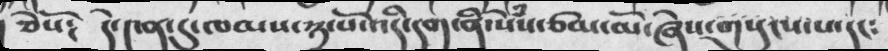ཅེསོ༴   དེ་༤ན་དུ་ཁམས་༢་པོ་འདི་དག་ནི་སེྃས་ཙམ་མོ་ཞེས་གསུངས་པ་དང༴
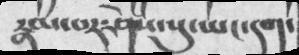རྣམ་པར་ཤེས་སུ་ཡང་དག་
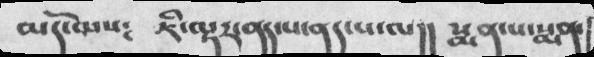མོད་ལས༴ ཇི་ལྟར་ནད་པ་ལ།། སྨན་པ་སྨན་
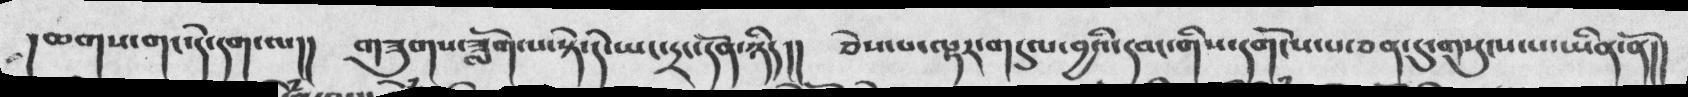།ཆགས་གང་དེ་དག་ལ།། གཟུགས་ཟློག་པ་སྟེ་དེ་ཡང་དྲང་དོན་ཉིད།། ཅེས་པ་ལྟར་གདུལ་བྱའི་དབང་གིས་དགོངས་པ་ཅན་དུ་གསུངས་པ་ཡིན་ནོ།།
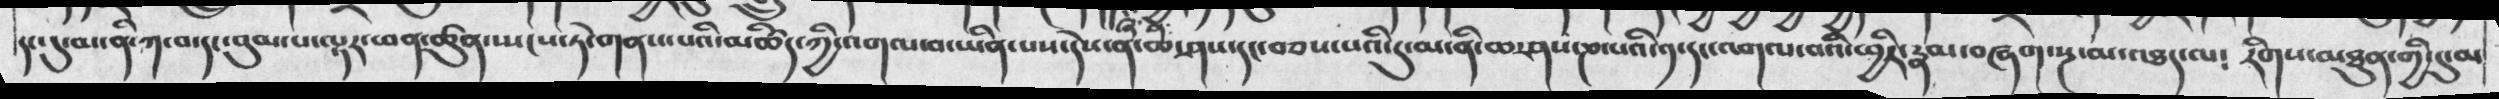དང་དུ་མ་ནི་ཀ་བ་དང་བུམ་པ་ལྟར་ཕན་ཚུན་སྤངས་ཏེ་གནས་པའི་མཚིད་ཀྱི་འགལ་བ་ཡིན་པས་དེས་ནི་ཆ་ཤས་དང་བཅས་པའི་དུ་མ་ནི་ཆ་ཤས་ཎ་པའི་༡་དང་འགལ་བའི་ཕྱིར་རྣམ་བཞག་སྔ་མ་འཐད་ལ༴   རིགས་མཐུན་གྱི་དུ་མ
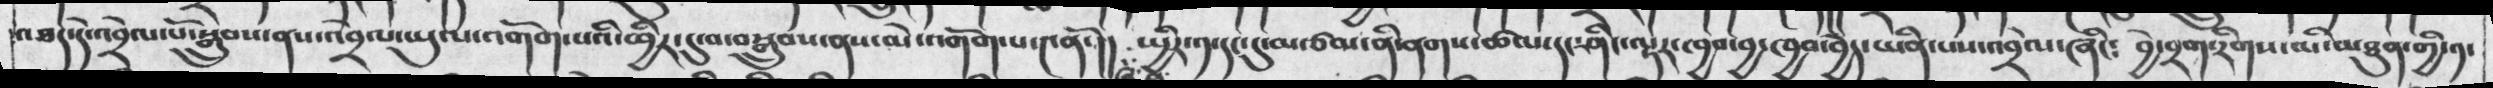འཐད་དེ་འབྲེལ་པོ་སྒྲུབས་ནས་འབྲེལ་ཡུལ་འགོག་པའི་ཕྱིར་དུ་བ་བསྒྲུབས་ནས་མེ་འགོག་པ་༤ནོ་།། སྤྱིར་༡་དང་དུ་མ་ཙམ་ནི་ནགས་ཚལ་དང་ཤིང་ལྟར་ཁྱབ་བྱ་ཁྱབ་བྱེད་ཡིན་པས་འབྲེལ་ཞིང༴ བྱེ་བྲག་རིགས་མི་མཐུན་གྱི་༡་
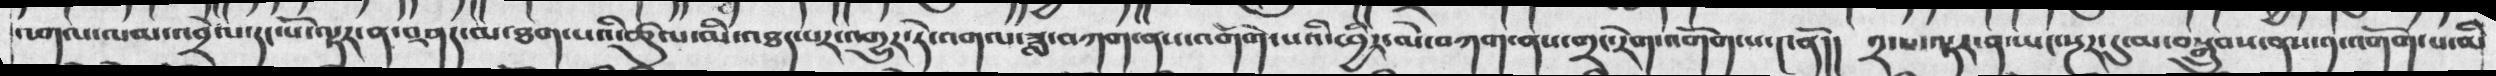འགལ་ལམ་འབྲེལ་དང་པོ་ལྟར་ན་བཤད་མ་ཐག་པའི་ཚུལ་མི་འཐད་པར་འགྱུར་ཏེ་འགལ་ཟླ་བཀག་ནས་འགོག་པའི་ཕྱིར་མེ་བཀག་ནས་གྲང་རེག་འགོག་པ་༤ནོ།། ༢་པ་ལྟར་ན་ཡང་སྔར་དུ་མ་བསྒྲུབས་ནས་༡་འགོག་པ་མི
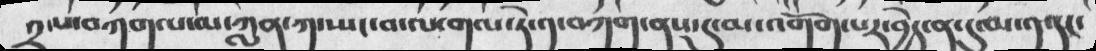༢་པ་བཀག་པ་མ་ཀླན་ཀ་ཡང་བ་ལ་གལ་ཏེ་༡་བཀག་ནས་དུ་མ་འགོག་པར་བྱེད་ན་དུ་མ་༡་དང་
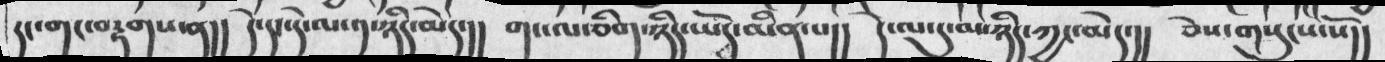དང་གང་བརྟགས་ན།། དེ་དང་དེ་ལ་༡་ཉིད་མེད་།། གང་ལ་ཅིག་ཉིད་ཡོད་མིན་པ།། དེ་ལ་དུ་མ་ཉིད་ཀྱང་མེད་།། ཅེས་གསུངས་སོ།།
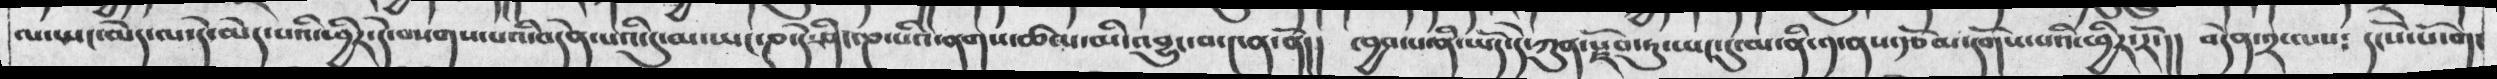ལ་ཡང་མེད་ལ་དེ་མེད་པའི་ཕྱིར་དེ་བསགས་པའི་བདེན་པའི་དུ་མ་ཡང་ཎ་དེ་ཤིང་ཎ་པི་ནགས་ཚལ་མི་འབྱུང་བ་༤ན་ནོ།། ཁྱབ་པ་ནི་ཡོད་དེ་ཀུན་སྫོབ་ཏུ་ཡང་དུ་མ་ནི་༡་ནས་རྩོམ་དགོས་པའི་ཕྱིར་རོ་།། བདེན་༢་ལས༴ དངོས་པོ་གང
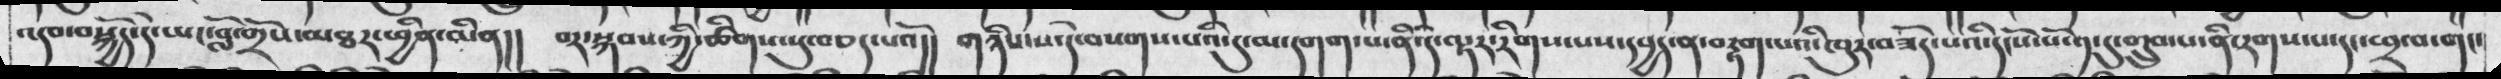འདབ་བསྐྱོད་དེ་ཡང་བློ་གྲོས་མཐར་ཕྱིན་མིན།། བར་སྐབས་ཀྱི་ཚིགས་སུ་བཅད་པའོ།། གཉིས་པ་དེ་བསགས་པའི་དུ་མ་དགག་པ་ནི་དེ་ལྟར་རིགས་པས་དཔྱད་ན་བརྟག་པའི་ཁུར་བཟོད་པའི་དངོས་པོ་༡་དུ་གྲུབ་པ་ནི་རགས་པ་དང་ཕྲ་བ་གང་
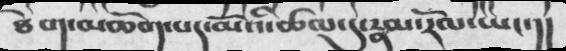ཐེག་མཆོག་པད་མོའི་ཚལ་དུ་རྣམ་རོལ་ཡང་།།
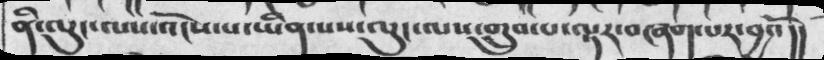ནི་ལུང་ལས་འོངས་པ་ཡིན་པས་ལུང་ལས་གྲུབ་པ་ལྟར་བཞག་པར་བྱའོ།།
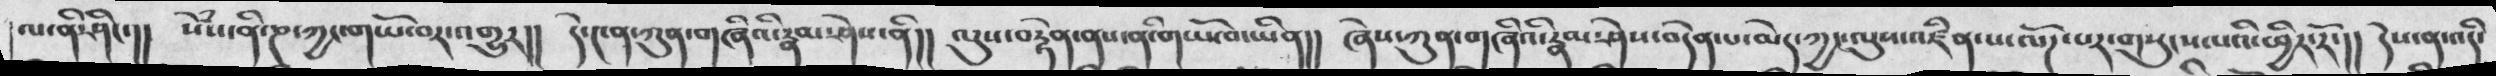ལ་ནི་ཤིང་།། སེཾས་ནི་ཎ་ཀྱང་གཡོ་བར་འགྱུར།། དེ་༤ན་ཀུན་གཞིའི་རྣམ་ཤེས་ནི།། ལུས་བརྟེན་ནས་ནི་གཡོ་བ་ཡིན།། ཞེས་ཀུན་གཞིའི་རྣམ་ཤེས་བདེན་པ་མེད་ཀྱང་ལུས་འཛིན་པ་ལོཌ་པར་གསུངས་པའི་ཕྱིར་རོ་།། དེས་ན་འདི་
